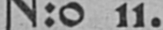N:o 11.
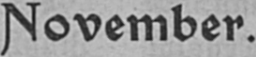November.
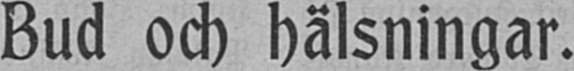Bud och hälsningar.
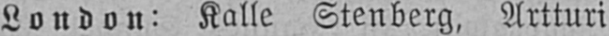London: Kalle Stenberg, Artturi
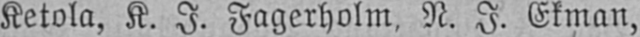Ketola, K. I. Fagerholm, N. I. Ekman,
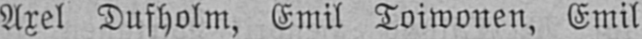Axel Dufholm, Emil Toiwonen, Emil
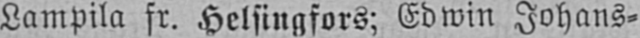Lampila fr. Helsingfors; Edwin Johans-
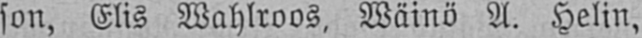son, Elis Wahlroos, Wäinö A. Helin,
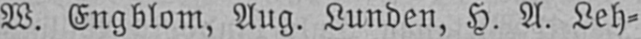W. Engblom, Aug. Lunden, H. A. Leh-
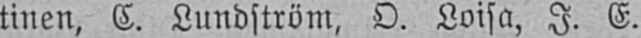tinen, C. Lundström, O. Loisa, I. E.
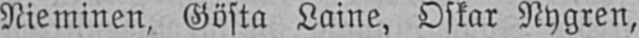Nieminen, Gösta Laine, Oskar Nygren,
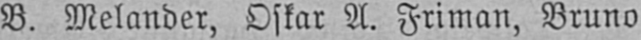B. Melander, Oskar A. Friman, Bruno
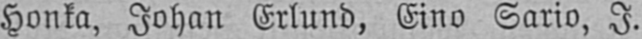Honka, Johan Erlund, Eino Sario, I.
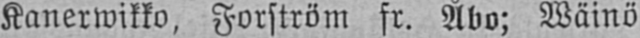Kanerwikko, Forström fr. Åbo; Wäinö
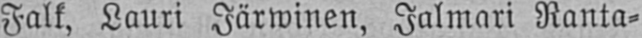Falk, Lauri Järwinen, Jalmari Ranta-
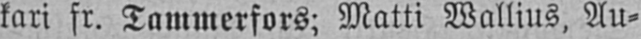kari fr. Tammerfors; Matti Wallius, Au-
